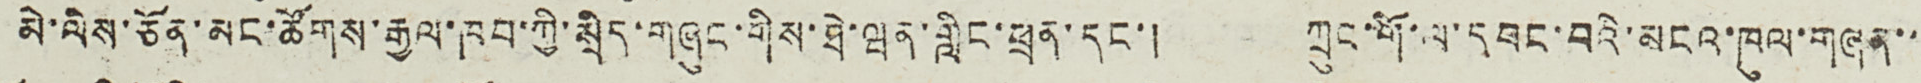མེ་ལིས་ཅོན་མང་ཚོགས་རྒྱལ་ཁབ་ཀྱི་སྲིད་གཞུང་གིས་ཐེ་ཝན་གླིང་ཕྲན་དང་། ཀྲུང་གོ་ལ་དབང་བའི་མངའ་ཁུལ་གཞན་་
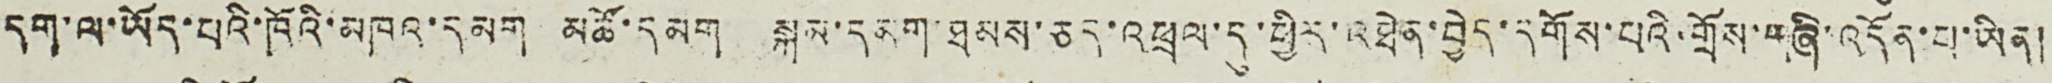དག་ལ་ཡོད་པའི་ཁོའི་མཁའ་དམག མཚོ་དམག སྐམ་དམག་ཐམས་ཅད་འཕྲལ་དུ་ཕྱིར་འཐེན་བྱེད་དགོས་པའི་གྲོས་གཞི་འདོན་པ་ཡིན།
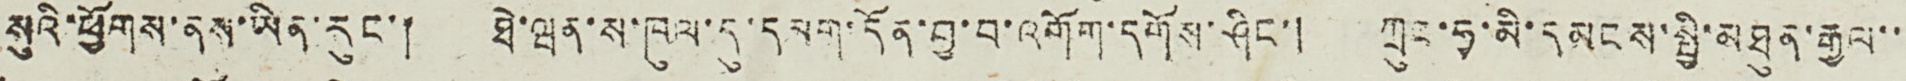སུའི་ཕྱོགས་ནས་ཡིན་རུང་། ཐེ་ཝན་ས་ཁུལ་དུ་དམག་དོན་བྱ་བ་འགོག་དགོས་ཤིང་། ཀྲུང་ཧྭ་མི་དམངས་སྤྱི་མཐུན་རྒྱལ་་
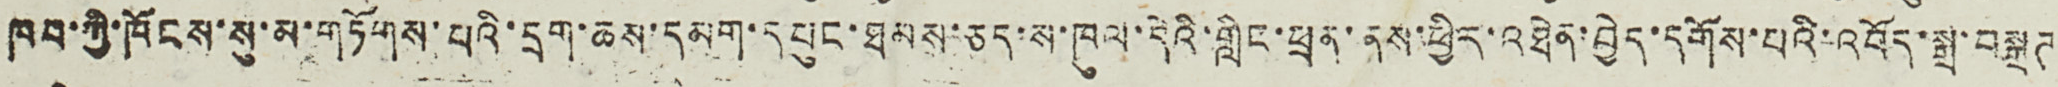ཁབ་ཀྱི་ཁོངས་སུ་མ་གཏོགས་པའི་དྲག་ཆས་དམག་དཔུང་ཐམས་ཅད་ས་ཁུལ་དེའི་གླིང་ཕྲན་ནས་ཕྱིར་འཐེན་བྱེད་དགོས་པའི་འབོད་སྒྲ་བསྒྲཊ
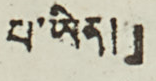པ་ཡིན།」
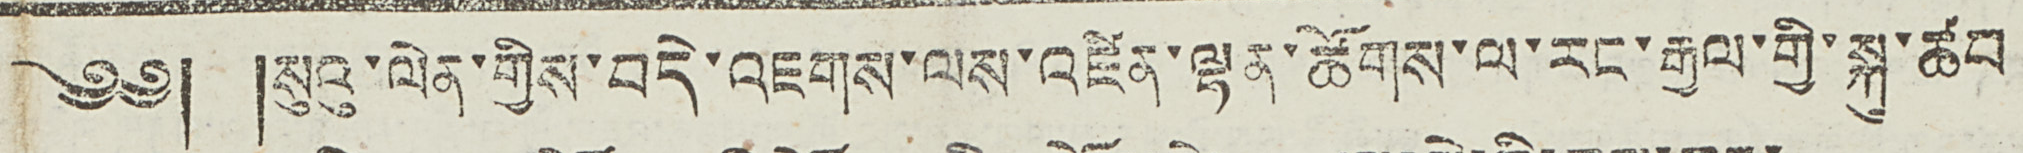༄༅། །སུའུ་ལེན་གྱིས་བདེ་འཇགས་ལས་འཛིན་ལྷན་ཚོགས་ལ་རང་རྒྱལ་གྱི་སྐུ་ཚབ
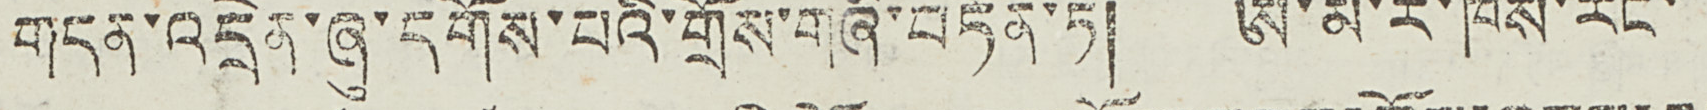གདན་འདྲེན་ཞུ་དགོས་པའི་གྲོས་གཞི་བཏོན་ཏེ། ཨ་མེ་རི་ཁས་རང་
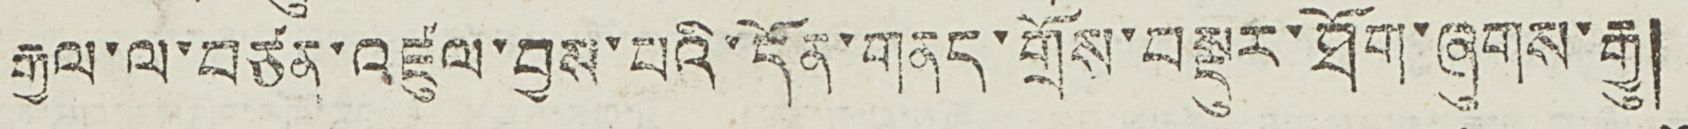རྒྱལ་ལ་བཙན་འཛུལ་བྱས་པའི་དོན་གནད་གྲོས་བསྡུར་ཐོག་ཞུགས་རྒྱུ།
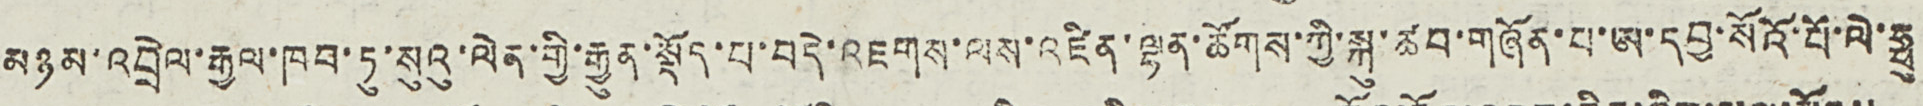མཉམ་འབྲེལ་རྒྱལ་ཁབ་ཏུ་སུའུ་ལེན་གྱི་རྒྱུན་སྡོད་པ་བདེ་འཇགས་ལས་འཛིན་ལྷན་ཚོགས་ཀྱི་སྐུ་ཚབ་གཞོན་པ་ཨ་དབྱ་སོའོ་པོ་ལེ་ཧྥུ
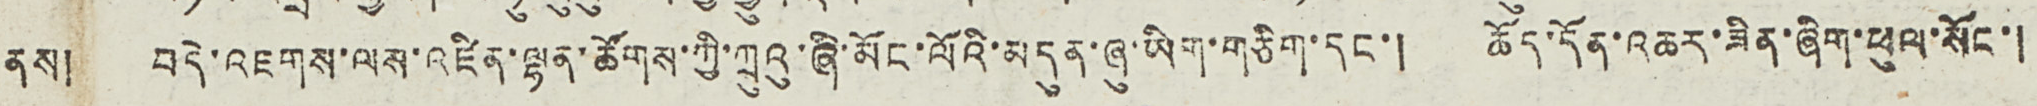ནས། བདེ་འཇགས་ལས་འཛིན་ལྷན་ཚགོས་ཀྱི་ཀྲུའུ་ཞི་མོང་ལོའི་མདུན་ཞུ་ཡིག་གཅིག་དང་། ཆོད་དོན་འཆར་ཟིན་ཞིག་ཕུལ་སོང་།
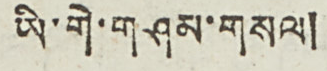ཡི་གེ་གཤམ་གསལ།
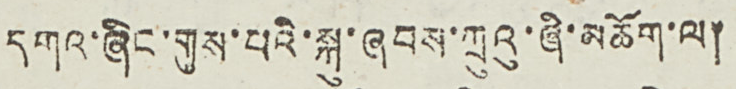དགའ་ཞིང་གུས་པའི་སྐུ་ཞབས་ཀྲུའུ་ཞི་མཆོག་ལ།
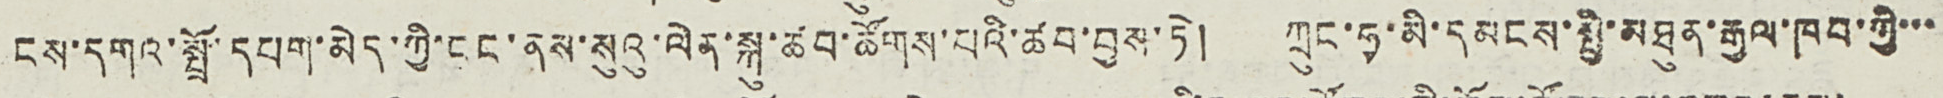ངས་དགའ་སྤྲོ་དཔག་མེད་ཀྱི་ངང་ནས་སུའུ་ལེན་སྐུ་ཚབ་ཚོགས་པའི་ཚབ་བྱས་ཏེ། ཀྲུང་ཧྭ་མི་དམངས་སྤྱི་མཐུན་རྒྱལ་ཁབ་ཀྱི་་་
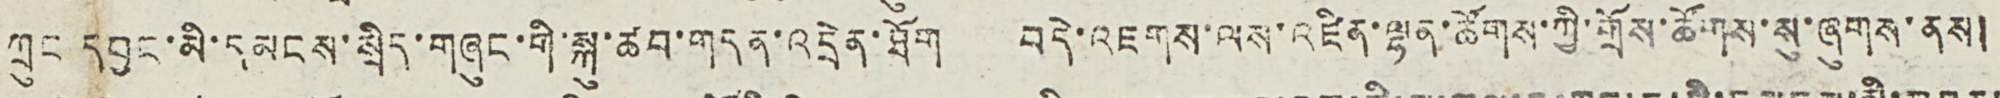ཀྲུང དབྱང་མི་དམངས་སྲིད་གཞུང་གི་སྐུ་ཚབ་གདན་འདྲེན་ཐོག བདེ་འཇགས་ལས་འཛིན་ལྷན་ཚོགས་ཀྱི་གྲོས་ཚོགས་སུ་ཞུགས་ནས།
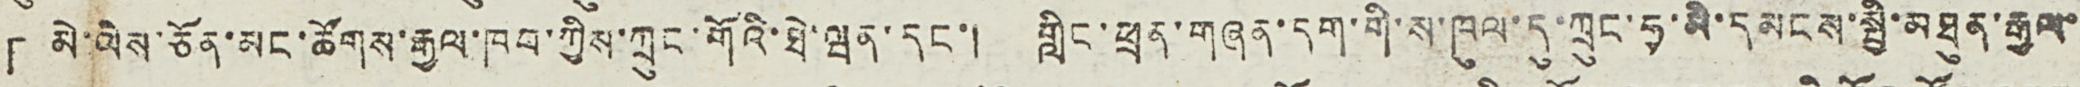「མེ་ལིས་ཅོན་མང་ཚོགས་རྒྱལ་ཁབ་ཀྱིས་ཀྲུང་གོའི་ཐེ་ཝན་དང་། གླིང་ཕྲན་གཞན་དག་གི་ས་ཁུལ་དུ་ཀྲུང་ཧྭ་མི་དམངས་སྤྱི་མཐུན་རྒྱལ་
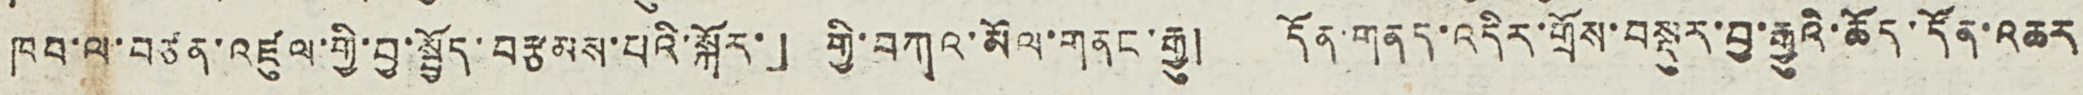ཁབ་ལ་བཙན་འཛུལ་གྱི་བྱ་སྤྱོད་བརྩམས་པའི་སྐོར་」གྱི་བཀའ་མོལ་གནང་རྒྱུ། དོན་གནད་འདིར་གྲོས་བསྡུར་བྱ་རྒྱུའི་ཆོད་དོན་འཆར
